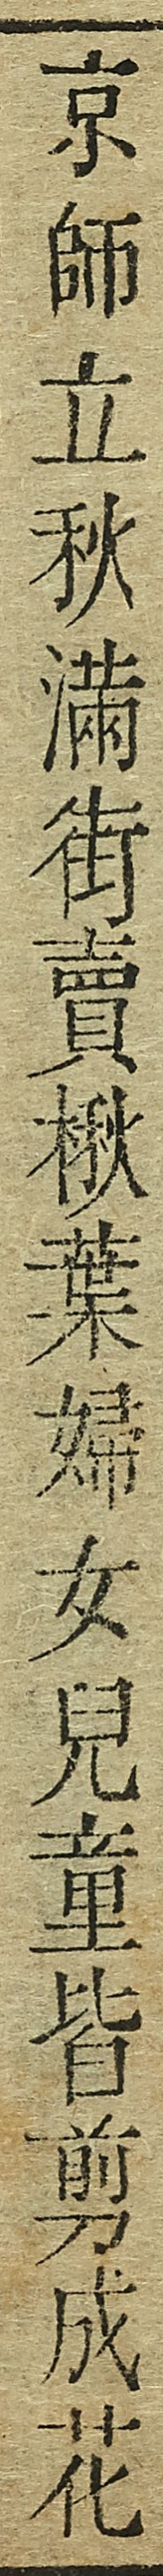京師立秋滿街賣揪葉婦女兒童皆剪成花
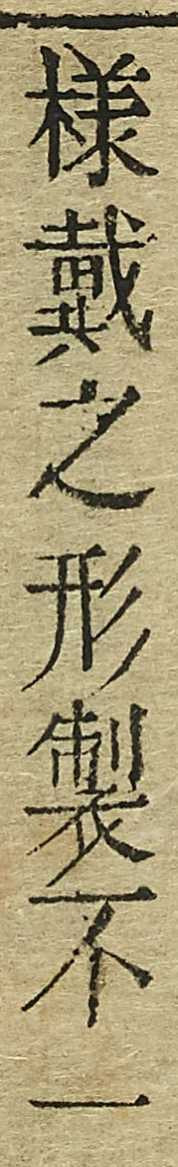樣戴之形製不一
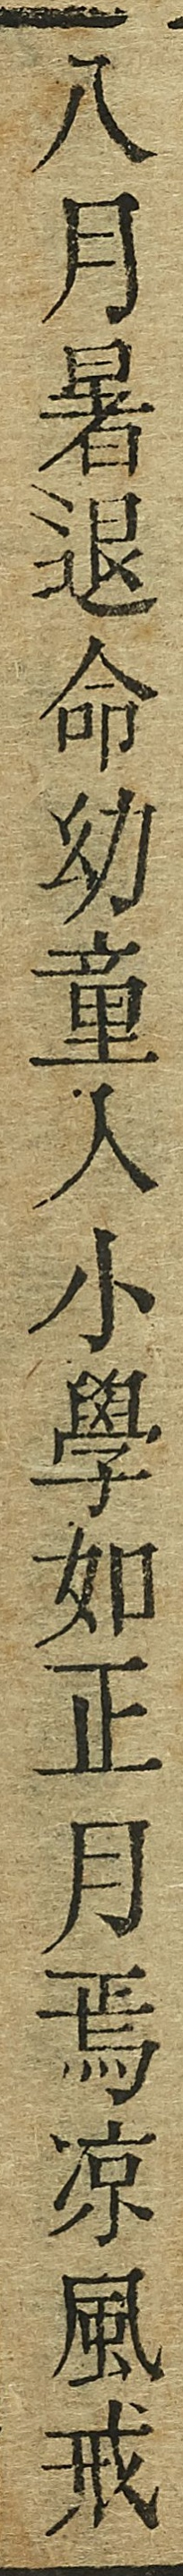八月暑退命幼童人小學如正月焉凉風戒
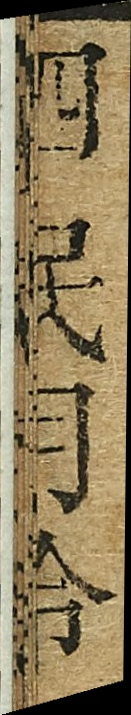四民月令
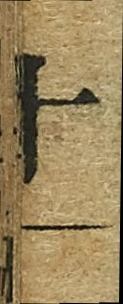十一
